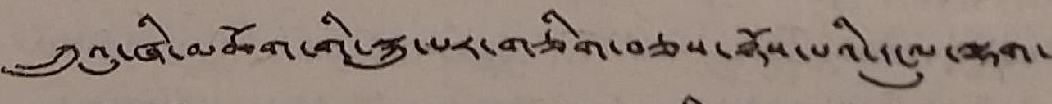ཀྲུའུ་ཞི་མཆོག་གི་སྐུ་པར་གཅིག་བཅས་ཉོས་པའི་དངུལ་ལྷག་
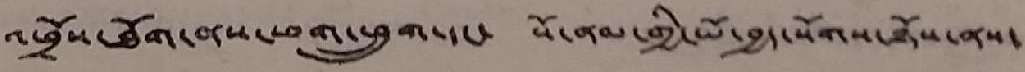འཕྲོས་ཐོག་ནས་ཕག་ཕྲུག་དང་ སོ་ནམ་གྱི་ཡོ་བྱད་སོགས་ཉོས་ནས་
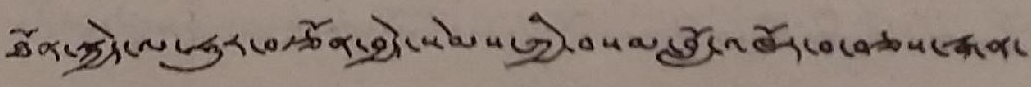ཐོན་སྐྱེད་ལ་ཧུར་བརྩོན་བྱེད་སེམས་ཀྱི་བསམ་བློ་འཁོར་བ་བཅས་རྒན་
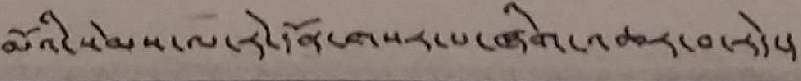མོའི་སེམས་ལ་རེ་དོན་གསར་ཞིག་འཆར་བ་རེད་།
